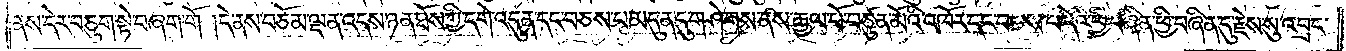ནས་དེར་བཅུག་སྟེ་བཞག་གོ །དེ་ནས་བཅོམ་ལྡན་འདས་ཉན་ཐོས་ཀྱི་དགེ་འདུན་དང་བཅས་པ་མདུན་དུ་གཤེགས་ནས་རྒྱལ་པོ་བཙུན་མོའི་འཁོར་དང་བཅས་པ་དེའི་ཕྱི་བཞིན་དུ་རྗེས་སུ་འབྲང་
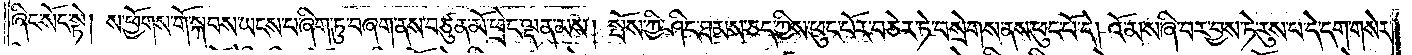ཞིང་སོང་སྟེ། ས་ཕྱོགས་གོ་སྐབས་ཡངས་པ་ཞིག་ཏུ་བཞག་ནས་བཙུན་མོ་ཕྲེང་ལྡན་མས། སྤོས་ཀྱི་ཤིང་ཐམས་ཅད་ཀྱིས་ཕུང་པོར་བཅེར་ཏེ་བསྲེགས་ནས་ཕུང་པོ་དེ། འོ་མས་ཞི་བར་བྱས་ཏེ་རུས་པ་དེ་དག་གསེར་
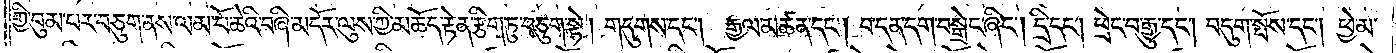གྱི་བུམ་པར་བཅུག་ནས་ལམ་པོ་ཆེའི་བཞི་མདོར་ལུས་ཀྱི་མཆོད་རྟེན་རྩིག་ཏུ་བཅུག་སྟེ། གདུགས་དང༌། རྒྱལ་མཚན་དང༌། བ་དན་དག་བསྒྲེང་ཞིང༌། དྲི་དང༌། ཕྲེང་བ་རྒྱུ་དང༌། བདུག་སྤོས་དང༌། ཕྱེ་མ་
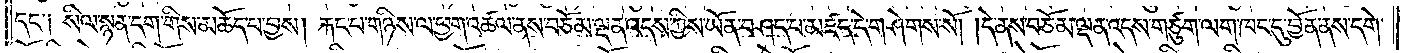དང་༑ སིལ་སྙན་དག་གིས་མཆོད་པ་བྱས། རྐང་པ་གཉིས་ལ་ཕྱག་འཚལ་ནས་བཅོམ་ལྡན་འདས་ཀྱིས་ཡོན་བཤད་པ་མཛད་དེ་གཤེགས་སོ། །དེ་ནས་བཅོམ་ལྡན་འདས་གཙུག་ལག་ཁང་དུ་བྱོན་ནས་དགེ་
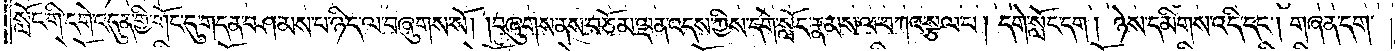སློང་གི་དགེ་འདུན་གྱི་གོང་དུ་གདན་བཤམས་པ་ཉིད་ལ་བཞུགས་སོ། །བཞུགས་ནས་བཅོམ་ལྡན་འདས་ཀྱིས་དགེ་སློང་རྣམས་ལ་བཀའ་སྩལ་པ། དགེ་སློང་དག། ཉེས་དམིགས་འདི་དང༌། གཞན་དག་
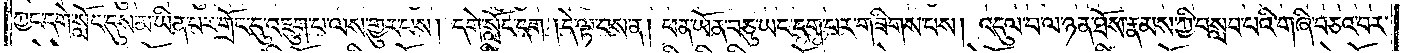ཀྱང་དགེ་སློང་དུས་མ་ཡིན་པར་གྲོང་དུ་འཇུག་པ་ལས་གྱུར་པས། དགེ་སློང་དག །དེ་ལྟ་བས་ན། ཕན་ཡོན་བཅུ་ཡང་དག་པར་གཟིགས་པས། འདུལ་བ་ལ་ཉན་ཐོས་རྣམས་ཀྱི་བསླབ་པའི་གཞི་བཅའ་བར་
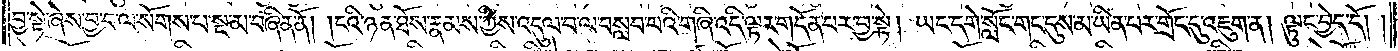བྱ་སྟེ་ཞེས་བྱ་བ་ལ་སོགས་པ་སྔ་མ་བཞིན་ནོ། །ངའི་ཉན་ཐོས་རྣམས་ཀྱིས་འདུལ་བ་ལ་བསླབ་པའི་གཞི་འདི་ལྟར་གདོན་པར་བྱ་སྟེ། ཡང་དགེ་སློང་གང་དུས་མ་ཡིན་པར་གྲོང་དུ་འཇུག་ན། ལྟུང་བྱེད་དོ། །
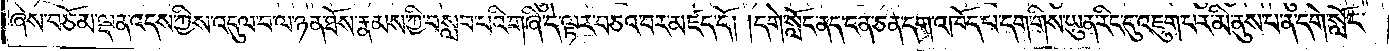ཞེས་བཅོམ་ལྡན་འདས་ཀྱིས་འདུལ་བ་ལ་ཉན་ཐོས་རྣམས་ཀྱི་བསླབ་པའི་གཞི་དེ་ལྟར་བཅའ་བར་མཛད་དོ། །དགེ་སློང་ནད་ངན་ཅན་དག་འཁོད་པ་དག་གིས་ཡུན་རིང་དུ་འཇུག་པར་མི་ནུས་པ་ན་དགེ་སློང་
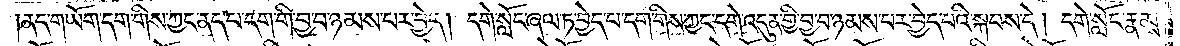།ནད་གཡོག་དག་གིས་ཀྱང་ནད་པ་དག་གིས་བྱ་བ་ཉམས་པར་བྱེད། དགེ་སློང་ཞལ་ཏ་བྱེད་པ་དག་གིས་ཀྱང་དགེ་འདུན་གྱི་བྱ་བ་ཉམས་པར་བྱེད་པའི་སྐབས་དེ། དགེ་སློང་རྣམས་
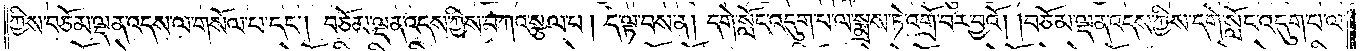ཀྱིས་བཅོམ་ལྡན་འདས་ལ་གསོལ་པ་དང༌། བཅོམ་ལྡན་འདས་ཀྱིས་བཀའ་སྩལ་པ། དེ་ལྟ་བས་ན། དགེ་སློང་འདུག་པ་ལ་སྨྲས་ཏེ་འགྲོ་བར་བྱའོ། །བཅོམ་ལྡན་འདས་ཀྱིས་དགེ་སློང་འདུག་པ་ལ་
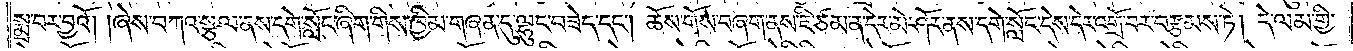སྨྲ་བར་བྱའོ། །ཞེས་བཀའ་སྩལ་ནས་དགེ་སློང་ཞིག་གིས་ཁྱིམ་གཞན་དུ་ལྷུང་བཟེད་དང༌། ཆོས་གོས་བཞག་ནས་ཇི་ཙམ་ན་དེར་མེ་ཤོར་ནས་དགེ་སློང་དེས་དེར་འགྲོ་བར་བརྩམས་ཏེ། དེ་ལམ་གྱི་
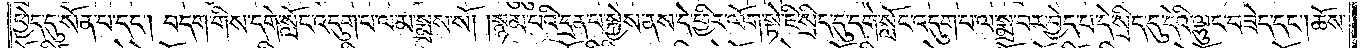ཕྱེད་དུ་སོན་པ་དང༌། བདག་གིས་དགེ་སློང་འདུག་པ་ལ་མ་སྨྲས་སོ། །སྙམ་པའི་དྲན་པ་སྐྱེས་ནས་དེ་ཕྱིར་ལོག་སྟེ་ཇི་སྲིད་དུ་དགེ་སློང་འདུག་པ་ལ་སྨྲ་བར་བྱེད་པ་དེ་སྲིད་དུ་དེའི་ལྷུང་བཟེད་དང༌། ཆོས་
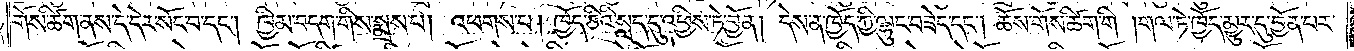གོས་ཚིག་ནས་དེ་དེར་སོང་བ་དང༌། ཁྱིམ་བདག་གིས་སྨྲས་པ། འཕགས་པ། ཁྱོད་ཅིའི་སླད་དུ་འཕྱིས་ཏེ་བྱོན། དེས་ན་ཁྱོད་ཀྱི་ལྷུང་བཟེད་དང༌། ཆོས་གོས་ཚིག་གི །གལ་ཏེ་ཁྱོད་མྱུར་དུ་བྱོན་པར་
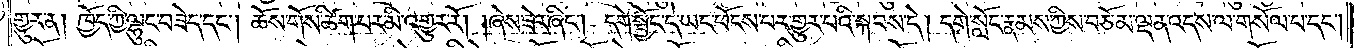གྱུར་ན། ཁྱོད་ཀྱི་ལྷུང་བཟེད་དང༌། ཆོས་གོས་ཚིག་པར་མི་འགྱུར་རོ། །ཞེས་ཟེར་ཞིང༌། དགེ་སྦྱོང་དེ་ཡང་ཕོངས་པར་གྱུར་པའི་སྐབས་དེ། དགེ་སློང་རྣམས་ཀྱིས་བཅོམ་ལྡན་འདས་ལ་གསོལ་པ་དང༌།
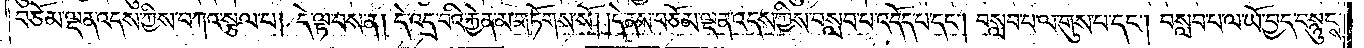བཅོམ་ལྡན་འདས་ཀྱིས་བཀའ་སྩལ་པ། དེ་ལྟ་བས་ན། དེ་འདྲ་བའི་རྐྱེན་མ་གཏོགས་སོ། །དེ་ནས་བཅོམ་ལྡན་འདས་ཀྱིས་བསླབ་པ་འདོད་པ་དང༌། བསླབ་པ་ལ་གུས་པ་དང༌། བསླབ་པ་ལ་ཡོ་བྱད་བསྙུངས་
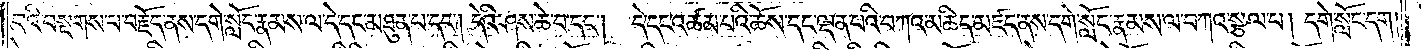བའི་བསྔགས་པ་བརྗོད་ནས་དགེ་སློང་རྣམས་ལ་དེ་དང་མཐུན་པ་དང༌། དེའི་ཤས་ཆེ་བ་དང༌། དེ་དང་འཚམ་པའི་ཆོས་དང་ལྡན་པའི་བཀའ་མཆིད་མཛད་ནས་དགེ་སློང་རྣམས་ལ་བཀའ་སྩལ་པ། དགེ་སློང་དག་
